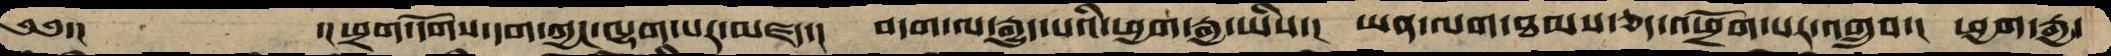༄༅་།         ་།་ཕྲག་དོགས་དག་ཀྱང་ལྷག་པར་མཛད་།  བདག་ལ་རྒྱུད་པའི་ཕྱག་རྒྱ་ཡིས་།  ཡན་ལག་ཐམས་ཅད་འཕྲོག་པར་འགྲུབ་།  ཕྱག་རྒྱ་
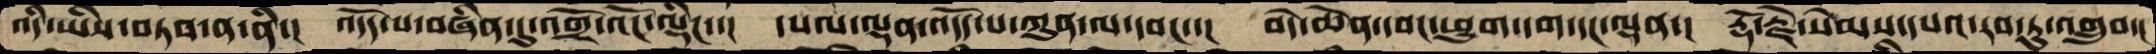འདི་ཡིས་བཏབ་ན་ནི་།  འདོད་པ་བཞིན་དུ་འགྲོ་འོང་ལྡིང་་།  དཔལ་ལྡན་འདོད་པ་ཀུན་ལ་དབང་་།  བདེ་ཆེན་དབང་ཕྱུག་དག་དང་ལྡན་།  རྡོ་རྗེ་སེམས་དཔའ་རབ་ཏུ་འགྲུབ་།
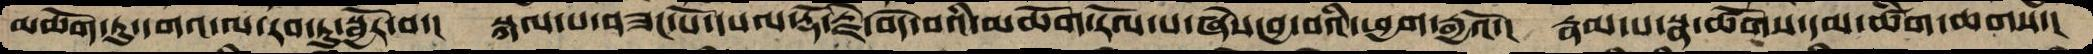མཆོག་ཏུ་དགའ་ལ་རབ་ཏུ་སྦྱོར་བ་།  སྐལ་པ་བཟང་པོ་དཔལ་རྡོ་རྗེ་བདེ་བའི་མཆོག་རོལ་པ་ཞེས་བྱ་བའི་ཕྱག་རྒྱའོ་།  རྣམ་པ་སྣ་ཚོགས་དམ་ཚིག་ཆགས་།
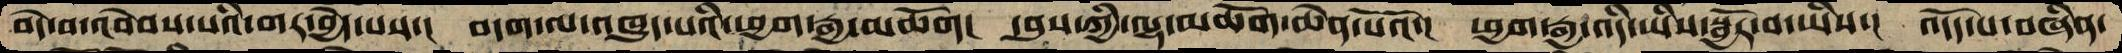བདེ་བ་འབེབས་པའི་གར་བྱེད་པས་།  བདག་ལ་འཁྱུད་པའི་ཕྱག་རྒྱ་མཆོག།  དབུས་ཀྱི་ལྷ་མཆོག་ཆེན་པོའོ་།  ཕྱག་རྒྱ་འདི་ཡིས་སྦྱོར་བ་ཡིས་།  འདོད་པ་བཞིན་
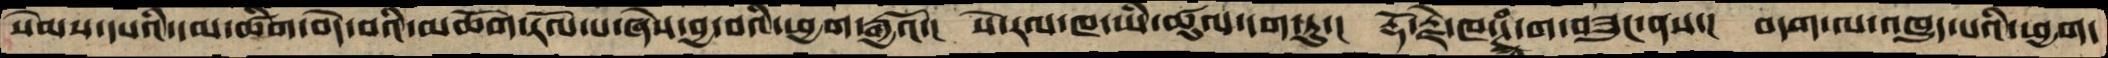སེམས་དཔའི་དམ་ཚིག་བདེ་བའི་མཆོག་རོལ་པ་ཞེས་བྱ་བའི་ཕྱག་རྒྱའོ་།  སེ་རལ་ཁ་ཡི་ཚུལ་དག་ཏུ་།  རྡོ་རྗེ་ཁ་ཊྭཱཾ་ག་བཟུང་ནས་།  བདག་ལ་འཁྱུད་པའི་ཕྱག་
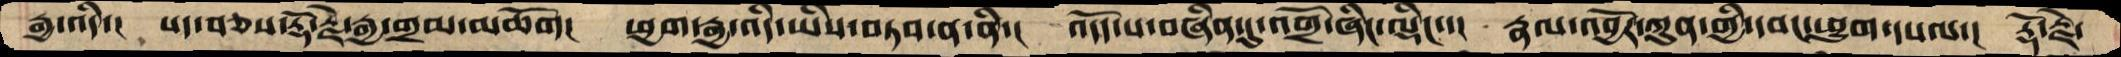རྒྱ་འདི་།  སད་བཅས་རྡོ་རྗེ་རྒྱ་གྲམ་མཆོག།  ཕྱག་རྒྱ་འདི་ཡིས་བཏབ་ན་ནི་།  འདོད་པ་བཞིན་དུ་འགྲོ་ཞིང་ལྡིང་་།  རྣལ་འབྱོར་ཀུན་གྱི་དབང་ཕྱུག་དཔལ་།  རྡོ་རྗེ་
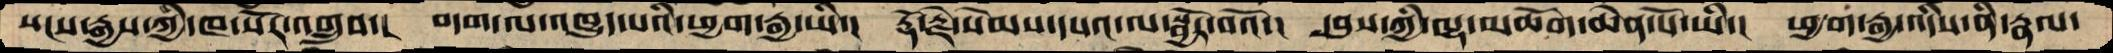སངས་རྒྱས་ཀྱི་ཁ་སོར་འགྲུབ་།  བདག་ལ་འཁྱུད་པའི་ཕྱག་རྒྱ་ཡི་།  རྡོ་རྗེ་སེམས་དཔའ་ལ་སྦྱོར་བའོ་།  དབུས་ཀྱི་ལྷ་མཆོག་ཆེན་པོ་ཡི་།  ཕྱག་་རྒྱ་འདིས་ནི་རྣལ་
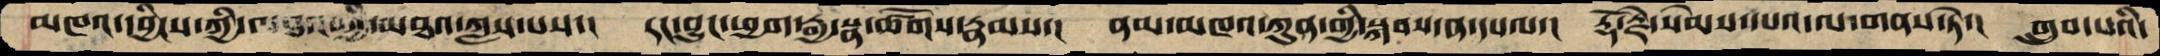མཁའ་དབྱིངས་ཀྱི་ མཐའ་ཀླས་པས་། རང་བྱུང་ཕྱག་རྒྱ་སྣ་ཚོགས་རྣམས་། ནམ་མཁའ་ཀུན་གྱི་སྐབས་ན་དཔལ་། རྡོ་རྗེ་སེམས་དཔའ་ལ་གནས་ཏེ་། གྲུབ་པའི་
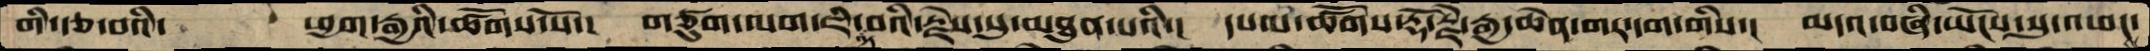གི་རྩ་བའི་    ཕྱག་རྒྱའི་ཚོགས་སོ་། གཙུག་ལག་ཇི་ལྟ་བའི་རྗེས་སུ་མཐུན་པའི་། དཔལ་ཚོགས་རྡོ་རྗེ་རྒྱ་ཆེན་གར་དག་གིས་། མདའ་བཞི་ཡོངས་སུ་འཕངས་
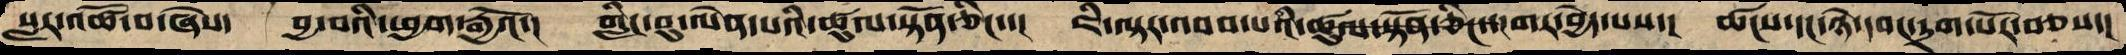སླར་འཚོ་བ་ཞེས་  བྱ་བའི་ཕྱག་རྒྱའོ་། གླིང་བུ་ལེན་པའི་ཚུལ་སྟོན་ཅིང་་། ཇི་ལྟར་འབབ་པའི་ཚུལ་སྟོན་ཅིང་གར་བྱེད་པས་། ཚངས་དང་ཉེ་དབང་དྲག་པོར་བཅས་།
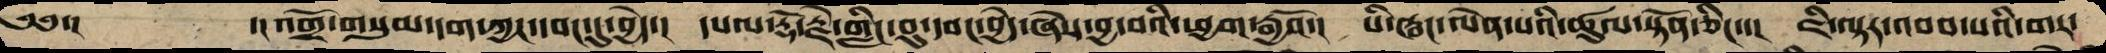༄༅་།      ་།འགྲོ་གསུམ་དག་ཀྱང་དབང་དུ་བྱེད་།  དཔལ་རྡོ་རྗེ་གླིང་བུ་དབང་བྱེད་ཞེས་བྱ་བའི་ཕྱག་རྒྱའོ་།  པི་ཝང་ལེན་པའི་ཚུལ་སྟོན་ཅིང་་།  ཇི་ལྟར་འབབ་པའི་གར་
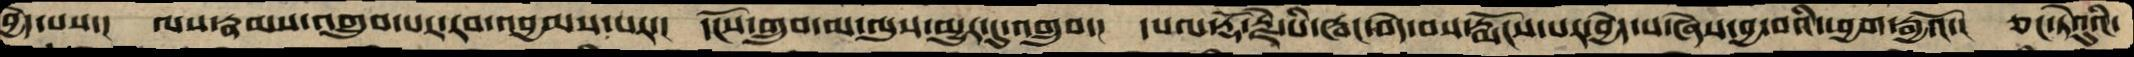བྱེད་པས་།  ལས་རྣམས་འགྲུབ་པར་རབ་འབྱམས་པར་།  དངོས་གྲུབ་མ་ལུས་མྱུར་དུ་འགྲུབ་།  དཔལ་རྡོ་རྗེ་པི་ཝང་བདེ་བས་རྨོངས་པར་བྱེད་པ་ཞེས་བྱ་བའི་ཕྱག་རྒྱའོ་།  ཅང་ཏེའུའི་
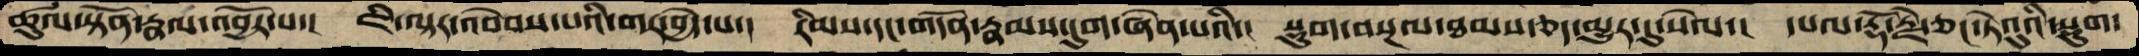ཚུལ་སྟོན་རྣལ་འབྱོར་པ་།  ཇི་ལྟར་འབེབས་པའི་གར་བྱེད་པ་།  རིམས་དང་གདོན་རྣམས་དུག་ཞེན་པའི་།  སྡུག་བསྔལ་ཐམས་ཅད་མྱུར་དུ་སེལ་།  དཔལ་རྡོ་རྗེ་ཅང་ཏེའུའི་སྡུག་
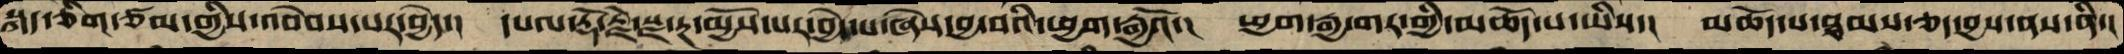སྐད་ཅིག་ཙམ་གྱིས་འབེབས་པར་བྱེད་།  དཔལ་རྡོ་རྗེ་སྫ་རྔ་མྱོས་པར་བྱེད་པ་ཞེས་བྱ་བའི་ཕྱག་རྒྱའོ་།  ཕྱག་རྒྱ་གར་གྱི་མཆོད་པ་ཡིས་།  མཆོད་པ་ཐམས་ཅད་བྱས་ནས་ནི་།
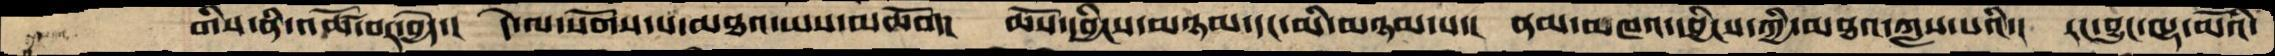གིས་ནི་འཚོ་བར་བྱེད་།  དེ་ལ་སོགས་པ་མཐའ་ཡས་མཆོག།  ཆོས་དབྱིངས་མཉམདང་མི་མཉམ་པ་།  ནམ་མཁའ་དབྱིངས་ཀྱི་མཐའ་ཀླས་པའི་།  རང་བྱུང་ལྷ་མོའི་
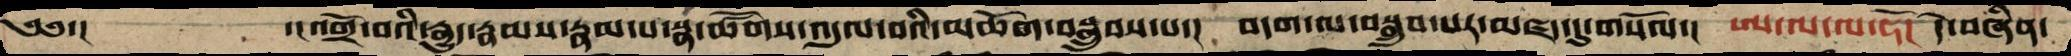༄༅་།      ་།འགྲོ་བའི་རྒྱུད་རྣམས་རྣམ་པ་སྣ་ཚོགས་འདུལ་བའི་མཆོག་བསྒྲུབཔ་པ་།  བདག་ལ་བསྒྲུབ་པར་མཛད་དུ་གསོལ་།  ཨ་ལ་ལ་ཧོ།  དེ་བཞིན་
